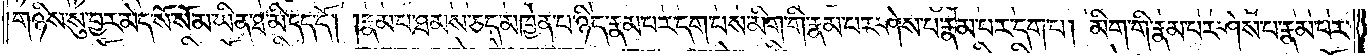གཉིས་སུ་བྱར་མེད་སོ་སོ་མ་ཡིན་ཐ་མི་དད་དོ། །རྣམ་པ་ཐམས་ཅད་མཁྱེན་པ་ཉིད་རྣམ་པར་དག་པས་མིག་གི་རྣམ་པར་ཤེས་པ་རྣམ་པར་དག་པ། མིག་གི་རྣམ་པར་ཤེས་པ་རྣམ་པར་
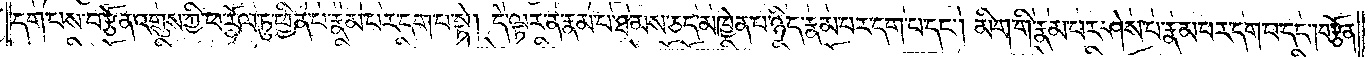དག་པས་བརྩོན་འགྲུས་ཀྱི་ཕ་རོལ་ཏུ་ཕྱིན་པ་རྣམ་པར་དག་པ་སྟེ། དེ་ལྟར་ན་རྣམ་པ་ཐམས་ཅད་མཁྱེན་པན་ཡིད་རྣམ་པར་དག་པ་དང༌། མིག་གི་རྣམ་པར་ཤེས་པ་རྣམ་པར་དག་པ་དང༌། བརྩོན་
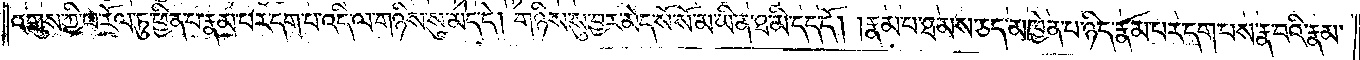འགྲུས་ཀྱི་ཕ་རོལ་ཏུ་ཕྱིན་པ་རྣམ་པར་དག་པ་འདི་ལ་གཉིས་སུ་མེད་དེ། གཉིས་སུ་བྱར་མེད་སོ་སོ་མ་ཡིན་ཐ་མི་དད་དོ། །རྣམ་པ་ཐམས་ཅད་མཁྱེན་པ་ཉིད་རྣམ་པར་དག་པས་རྣ་བའི་རྣམ་
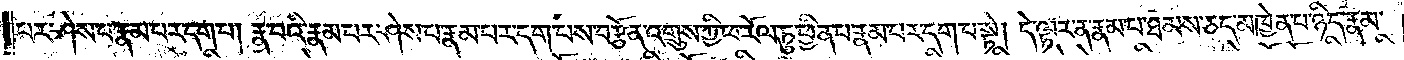པར་ཤེས་པ་རྣམ་པར་དག་པ། རྣ་བའི་རྣམ་པར་ཤེས་པ་རྣམ་པར་དག་པས་བརྩོན་འགྲུས་ཀྱི་ཕ་རོལ་ཏུ་ཕྱིན་པ་རྣམ་པར་དག་པ་སྟེ། དེ་ལྟར་ན་རྣམ་པ་ཐམས་ཅད་མཁྱེན་པ་ཉིད་རྣམ་
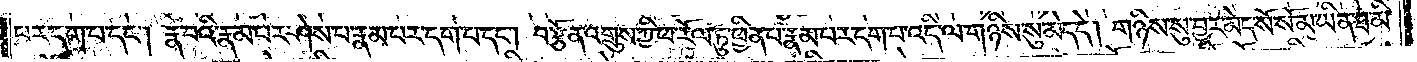པར་དག་པ་དང༌། རྣ་བའི་རྣམ་པར་ཤེས་པ་རྣམ་པར་དག་པ་དང༌། བརྩོན་འགྲུས་ཀྱི་ཕ་རོལ་ཏུ་ཕྱིན་པ་རྣམ་པར་དག་པ་འདི་ལ་གཉིས་སུ་མེད་དེ། གཉིས་སུ་བྱར་མེད་སོ་སོ་མ་ཡིན་ཐ་མི་
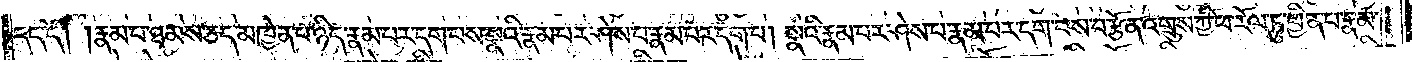དད་དོ། །རྣམ་པ་ཐམས་ཅད་མཁྱེན་པ་ཉིད་རྣམ་པར་དག་པས་སྣའི་རྣམ་པར་ཤེས་པ་རྣམ་པར་དག་པ། སྣའི་རྣམ་པར་ཤེས་པ་རྣམ་པར་དག་པས་བརྩོན་འགྲུས་ཀྱི་ཕ་རོལ་ཏུ་ཕྱིན་པ་རྣམ་
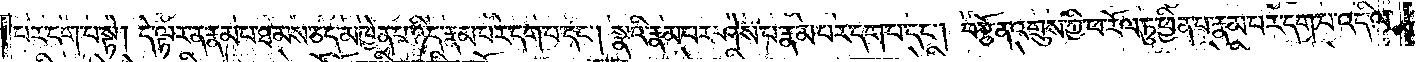པར་དག་པ་སྟེ། དེ་ལྟར་ན་རྣམ་པ་ཐམས་ཅད་མཁྱེན་པ་ཉིད་རྣམ་པར་དག་པ་དང༌། སྣའི་རྣམ་པར་ཤེས་པ་རྣམ་པར་དག་པ་དང༌། བརྩོན་འགྲུས་ཀྱི་ཕ་རོལ་ཏུ་ཕྱིན་པ་རྣམ་པར་དག་པ་འདི་ལ་
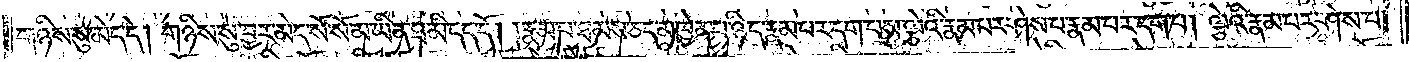གཉིས་སུ་མེད་དེ། གཉིས་སུ་བྱར་མེད་སོ་སོ་མ་ཡིན་ཐ་མི་དད་དོ། །རྣམ་པ་ཐམས་ཅད་མཁྱེན་པ་ཉིད་རྣམ་པར་དག་པས་ལྕེའི་རྣམ་པར་ཤེས་པ་རྣམ་པར་དག་པ། ལྕེའི་རྣམ་པར་ཤེས་པ་
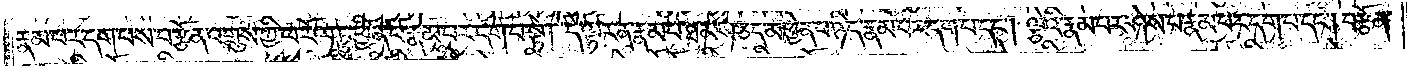རྣམ་པར་དག་པས་བརྩོན་འགྲུས་ཀྱི་ཕ་རོལ་ཏུ་ཕྱིན་པ་རྣམ་པར་དག་པ་སྟེ། དེ་ལྟར་ན་རྣམ་པ་ཐམས་ཅད་མཁྱེན་པ་ཉིད་རྣམ་པར་དག་པ་དང༌། ལྕེའི་རྣམ་པར་ཤེས་པ་རྣམ་པར་དག་པ་དང༌། བརྩོན་
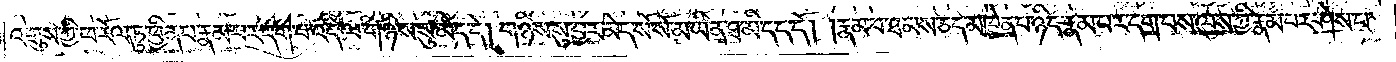འགྲུས་ཀྱི་ཕ་རོལ་ཏུ་ཕྱིན་པ་རྣམ་པར་དག་པ་འདི་ལ་གཉིས་སུ་མེད་དེ། གཉིས་སུ་བྱར་མེད་སོ་སོ་མ་ཡིན་ཐ་མི་དད་དོ། །རྣམ་པ་ཐམས་ཅད་མཁྱེན་པ་ཉིད་རྣམ་པར་དག་པས་ལུས་ཀྱི་རྣམ་པར་ཤེས་པ་
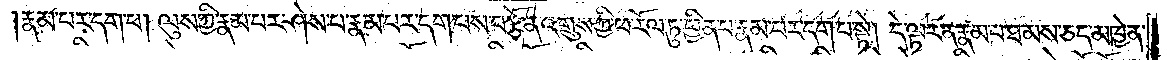རྣམ་པར་དག་པ། ལུས་ཀྱི་རྣམ་པར་ཤེས་པ་རྣམ་པར་དག་པས་བརྩོན་འགྲུས་ཀྱི་ཕ་རོལ་ཏུ་ཕྱིན་པ་རྣམ་པར་དག་པ་སྟེ། དེ་ལྟར་ན་རྣམ་པར་ཐམས་ཅད་མཁྱེན་
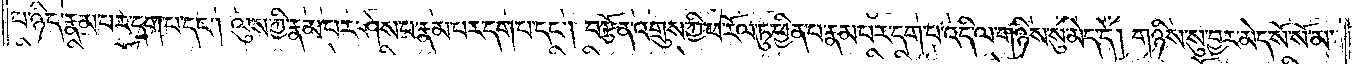པ་ཉིད་རྣམ་པར་དག་པ་དང༌། ལུས་ཀྱི་རྣམ་པར་ཤེས་པ་རྣམ་པར་དག་པ་དང༌། བརྩོན་འགྲུས་ཀྱི་ཕ་རོལ་ཏུ་ཕྱིན་པ་རྣམ་པར་དག་པ་འདི་ལ་གཉིས་སུ་མེད་དེ། གཉིས་སུ་བྱར་མེད་སོ་སོ་མ་
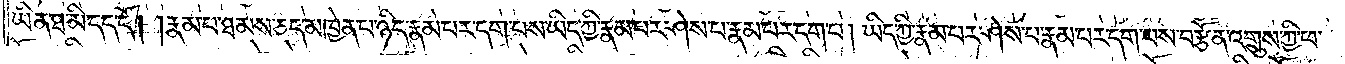ཡིན་ཐ་མི་དད་དོ། །རྣམ་པ་ཐམས་ཅད་མཁྱེན་པ་ཉིད་རྣམ་པར་དག་པས་ཡིད་ཀྱི་རྣམ་པར་ཤེས་པ་རྣམ་པར་དག་པ། ཡིད་ཀྱི་རྣམ་པར་ཤེས་པ་རྣམ་པར་དག་པས་བརྩོན་འགྲུས་ཀྱི་ཕ་
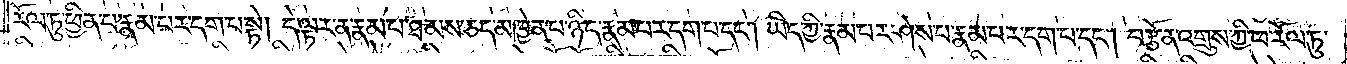རོལ་ཏུ་ཕྱིན་པ་རྣམ་པར་དག་པ་སྟེ། དེ་ལྟར་ན་རྣམ་པ་ཐམས་ཅད་མཁྱེན་པ་ཉིད་རྣམ་པར་དག་པ་དང༌། ཡིད་ཀྱི་རྣམ་པར་ཤེས་པ་རྣམ་པར་དག་པ་དང༌། བརྩོན་འགྲུས་ཀྱི་ཕ་རོལ་ཏུ་
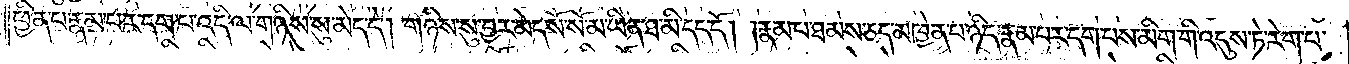ཕྱིན་པ་རྣམ་པར་དག་པ་འདི་ལ་གཉིས་སུ་མེད་དེ། གཉིས་སུ་བྱར་མེད་སོ་སོ་མ་ཡིན་ཐ་མི་དད་དོ། །རྣམ་པ་ཐམས་ཅད་མཁྱེན་པ་ཉིད་རྣམ་པར་དག་པས་མིག་གི་འདུས་ཏེ་རེག་པ་
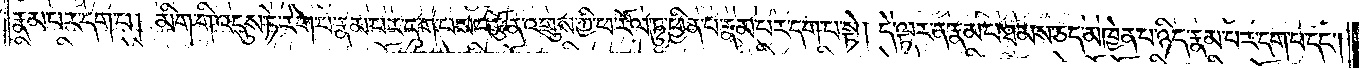རྣམ་པར་དག་པ། མིག་གི་འདུས་ཏེ་རེག་པ་རྣམ་པར་དག་པས་བརྩོན་འགྲུས་ཀྱི་ཕ་རོལ་ཏུ་ཕྱིན་པ་རྣམ་པར་དག་པ་སྟེ། དེ་ལྟར་ན་རྣམ་པ་ཐམས་ཅད་མཁྱེན་པ་ཉིད་རྣམ་པར་དག་པ་དང༌།
